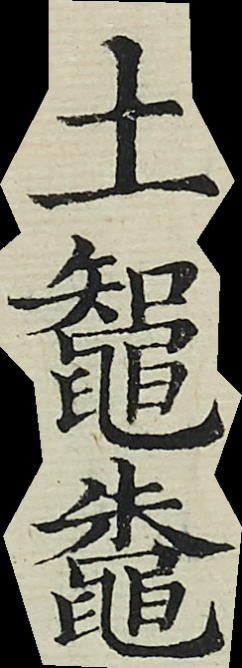土鼅鼄
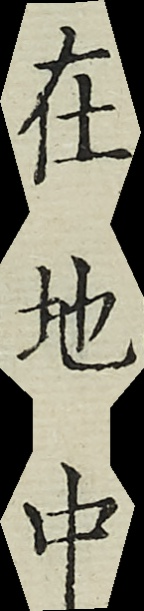在地中
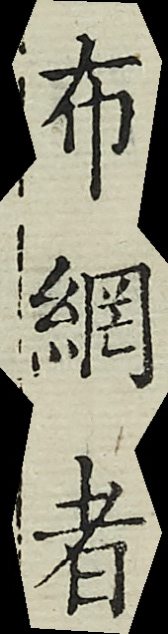布網者
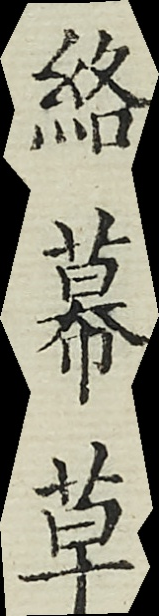絡幕草
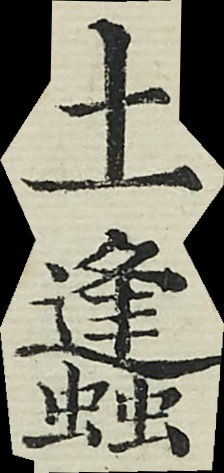土蜂
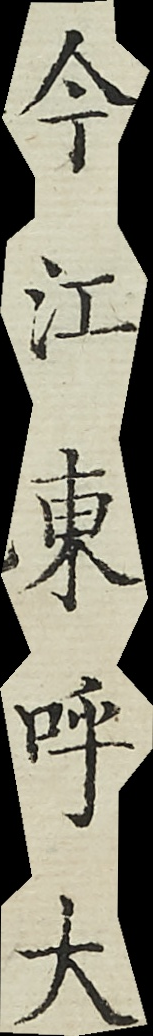今江東呼大
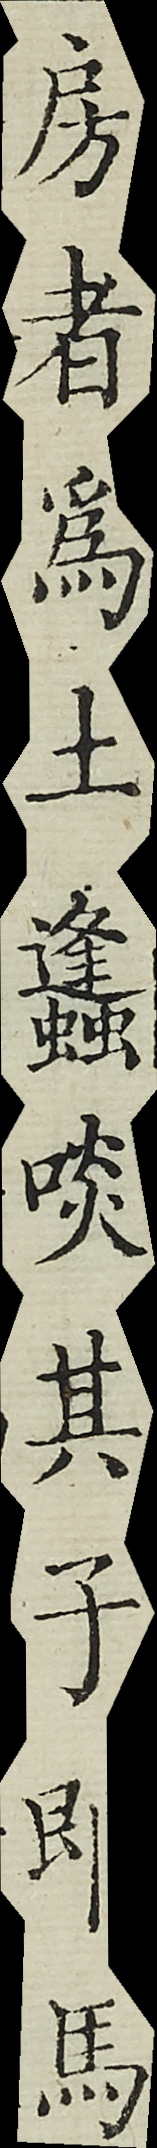房者為土蜂啖其子即馬
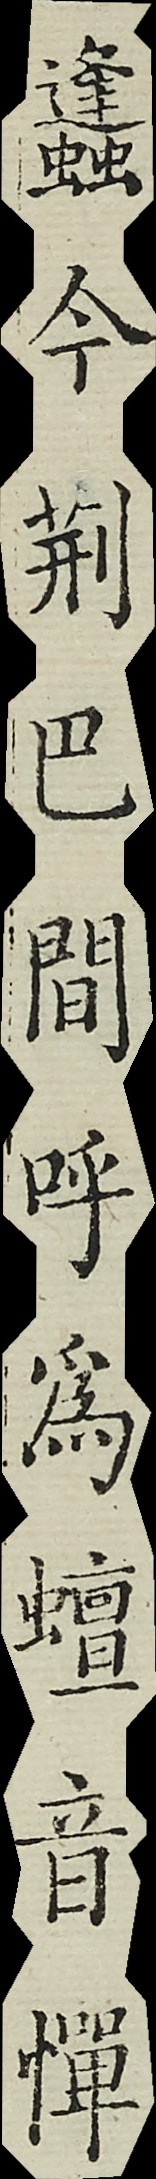蜂今荊巴間呼為蟺音憚
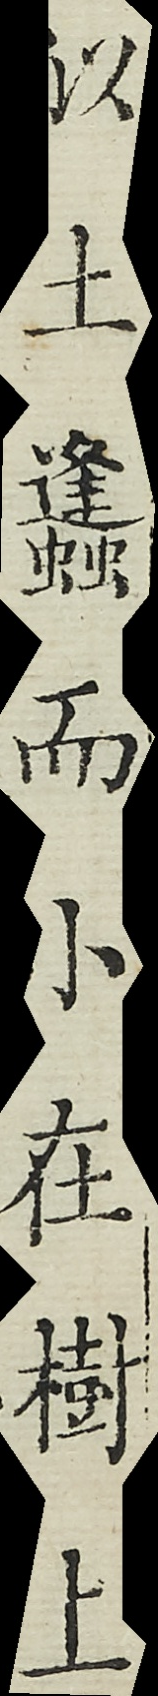似土蜂而小在樹上
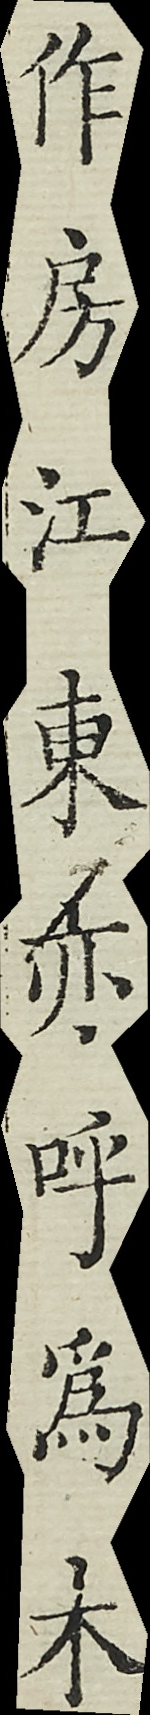作房江東亦呼為木
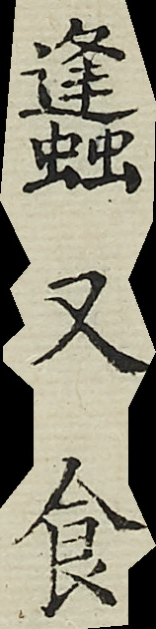蜂又食
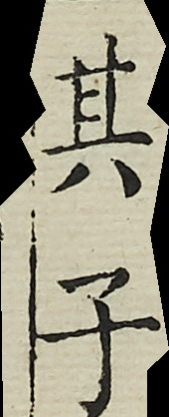其子
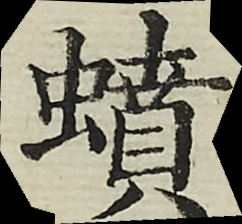蟦
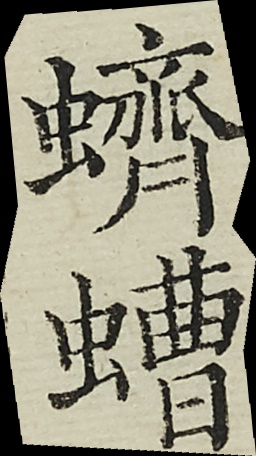蠐螬
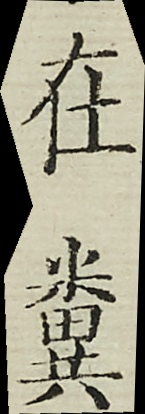在糞
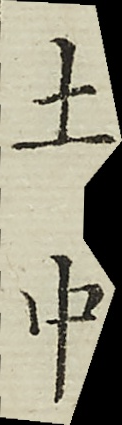土中
